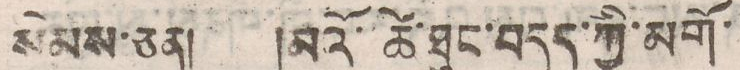སེམས་ཅན། །མའོ་ཚེ་ཐུང་བདུད་ཀྱི་མགོ་
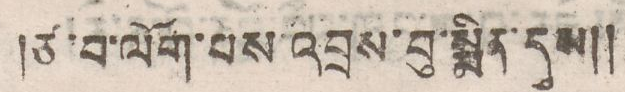།ཙ་བ་ལོག་བས་འབྲས་བུ་སྨིན་དུས།།
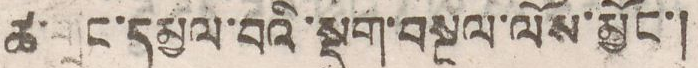ཚ་གྲང་དམྱལ་བའི་སྡུག་བསྔལ་ལོས་མྱོང་།
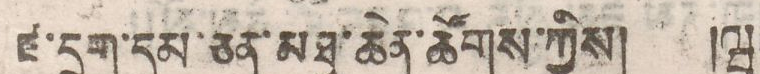ཛ་དྲག་དམ་ཅན་མཐུ་ཆེན་ཚོགས་ཀྱིས། །ཝ
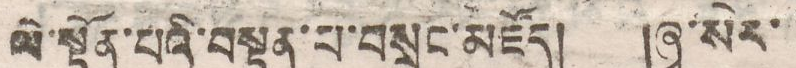ལེ་སྟོན་པའི་བསྟན་པ་བསྲུང་མཛོད། །ཞྭ་སེར་
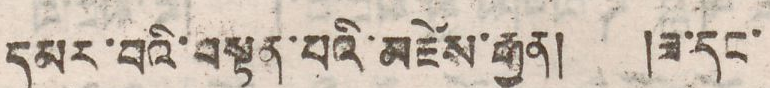དམར་བའི་བསྟན་པའི་མཛེས་རྒྱན། །ཟ་དང་
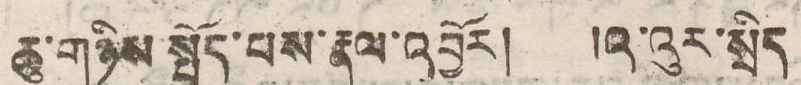ཆུ་གཉིས་སྤྱོད་པས་རྣལ་འབྱོར། །འ་འུར་སྲིད
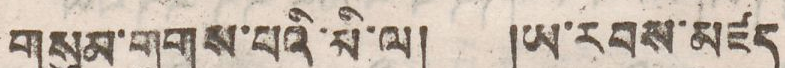གསུམ་གྲགས་པའི་མི་ལ། ཡ་རབས་མཛད
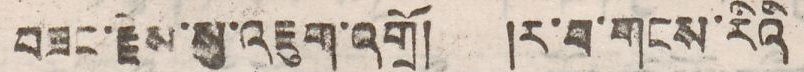བཟང་རྗེས་སུ་འཇུག་འགྲོ། །ར་བ་གངས་རིའི
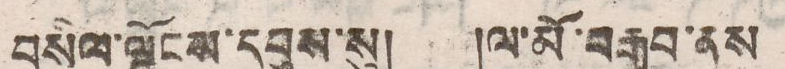བསིལ་ལྗོངས་དབུས་སུ། །ལ་མོ་བརྒྱབ་ནས
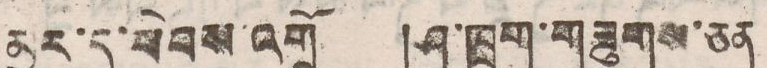མྱུར་དུ་ཕེབས་འགྲོ །ཤ་ཁྲག་གཟུགས་ཅན
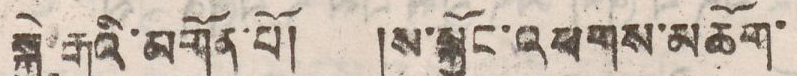སྐྱེ རྒུའི་མགོན་པོ། །ས་སྐྱོང་འཕགས་མཆོག་
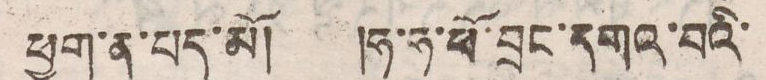ཕྱག་ན་པད་མོ། །ཧ་ཧ་ཕོ་བྲང་དགའ་བའི་
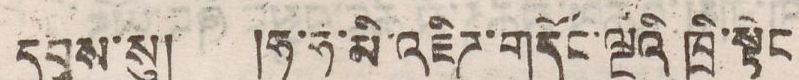དབུས་སུ། །ཧ་ཧ་མི་འཇིཌ་གདོང་ལྔའི་ཁྲི་སྟེང
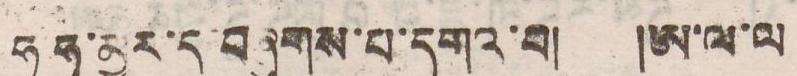ཧ ཧ་མྱུར་དུ་བཞུགས་པ་དགའ་བ། །ཨ་ལ་ལ
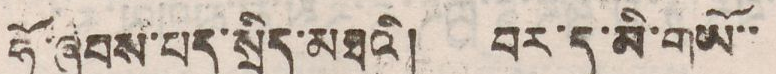ཧོ་ཞབས་པད་སྲིད་མཐའི། བར་དུ་མི་གཡོ་་
